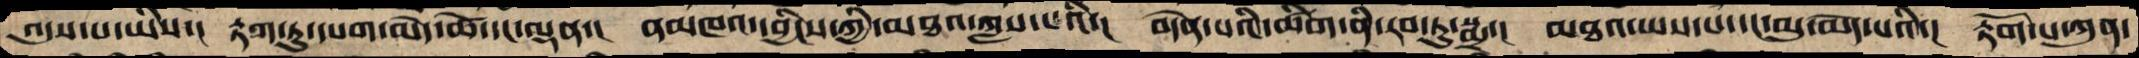འདུས་པ་ཡིས་།  རྟག་ཏུ་དཔག་མེད་ཚེ་དང་ལྡན་།  ནམཁའ་དབྱིངས་ཀྱི་མཐའ་ཀླས་པའི་།  བདེེན་པའི་ཚིག་ནི་རབ་ཏུ་སྨྲ་།  མཐའ་ཡས་པ་དང་མུ་མེད་པའི་།  རྟོག་པ་ཀུན་
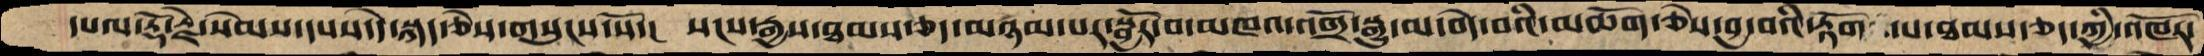དཔལ་རྡོ་རྗེ་སེམས་དཔས་དེ་སྐད་ཅེས་གསུངས་སོ་།  སངས་རྒྱས་ཐམས་ཅད་མཉམ་པར་སྦྱོར་བ་མཁའ་འགྲོ་སྒྱུ་མ་བདེ་བའི་མཆོག་ཅེས་བྱ་བའི་རྟོག་པ་ཐམས་ཅད་ཀྱི་འཁོར་
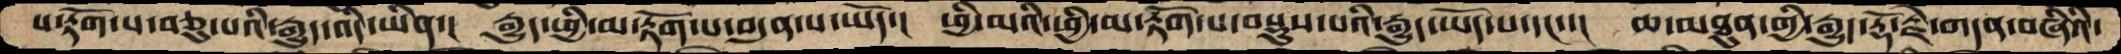པ་རྟོག་པ་བཅུ་པའི་རྒྱུད་འདི་ཡིན་།  རྒྱུད་ཕྱི་མ་རྟོག་པ་བདུན་པ་ཡོད་།  ཕྱི་མའི་ཕྱི་མ་རྟོག་པ་བསྡུས་པའི་རྒྱུད་ཡོད་པ་དང་་།  ཆ་མཐུན་གྱི་རྒྱུད་རྡོ་རྗེ་གདན་བཞིའི་
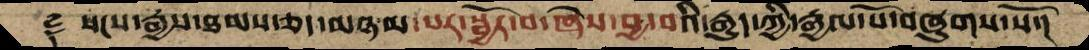࿑ སངས་རྒྱས་ཐམས་ཅད་མཉམ་པར་སྦྱོར་བ་ཞེས་བྱ་བའི་རྒྱུད་ཀྱི་རྒྱལ་པོ་བཞུགས་སོ་།
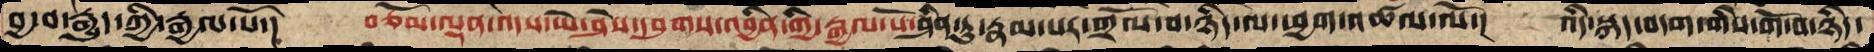བྱ་བ་རྒྱུད་ཀྱི་རྒྱལ་པོ་།  བཅོམ་ལྡན་འདས་ཡེ་ཤེས་དབུགས་འབྱིན་གྱི་རྒྱལ་པོ་ཤིན་ཏུ་རྣམ་པར་གྲོལ་བ་ཉིད་ལ་ཕྱག་འཚལ་ལོ་།  འདི་སྐད་བདག་གིས་གོ་བ་ཉིད་
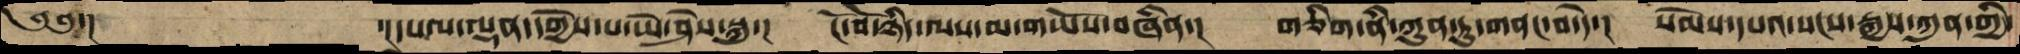༄༅་།        ་།་དཔལ་ལྡན་དགྱེས་པ་ཡེ་ཤེས་སྐུ་།  ངོ་བོ་ཉིད་ལས་མ་གཡོས་བཞིན་།  གཅིག་ནི་ཀུན་ཏུ་གནང་བ་དེ་།  སེམས་དཔའ་སངས་རྒྱས་ཀུན་གྱི་
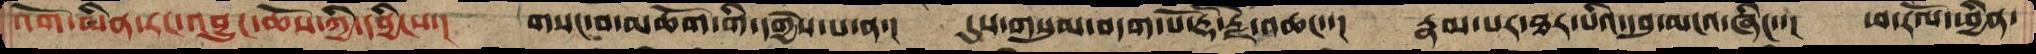འོག་མིན་རང་བྱུང་ཆོས་ཀྱི་དབྱིངས་།  གསང་བ་མཆོག་གི་དགྱེས་པ་ན་།  དུས་གསུམ་བདག་པོ་རྡོ་རྗེ་འཆང་་།  རྣམ་པར་ཐར་པའི་དབུ་མངའ་ཞིང་་།  ཕ་རོལ་ཕྱིན་
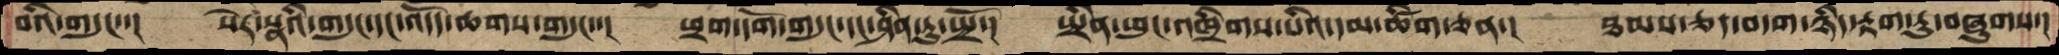བའི་གདུང་་།  སེར་སྣའི་གདུང་དང་འདོད་ཆགས་གདུང་་།  ཕྲག་དོག་གདུང་དང་ཤིན་ཏུ་སྤྲོ་།  སྤྲིན་ཕུང་འཁྲིགས་པའི་དམ་ཚིག་ཅན་།  ཐམས་ཅད་བདག་ཉིད་རྟག་ཏུ་བཞུགས་།
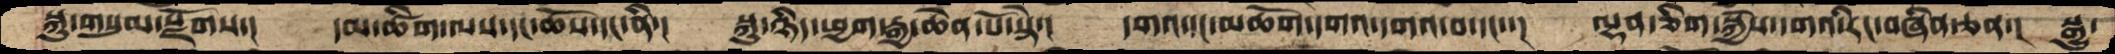སྐུ་གསུམ་སྫོགས་།  དམ་ཚིག་ལས་དང་ཆོས་དང་ནི་།  སྐུ་ཉིད་ཕྱག་རྒྱ་ཆེན་པོ་སྟེ་།  དགའ་དང་མཆོག་དགའ་དགའ་བ་དང་་།  ལྷན་ཅིག་སྐྱེས་དགའི་རང་བཞིན་ཅན་།  སྒྱུ་
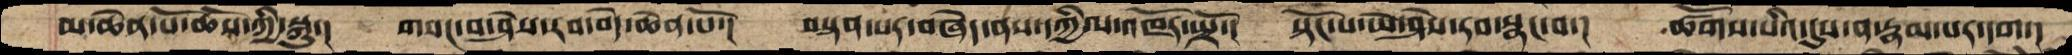མ་ཆེན་པོ་ཆོས་ཀྱི་སྐུ་།  གསང་བ་ཤེས་རབ་བདེ་ཆེན་པོ་།  བསྟན་པར་བཞེད་ནས་དཀྱིལ་འཁོར་སྤྲོ་།  སྟོང་པ་ཡེ་ཤེས་རབ་སྣང་བ་།  ཚོགས་པའི་དུས་ན་རྣམ་པར་དག་།
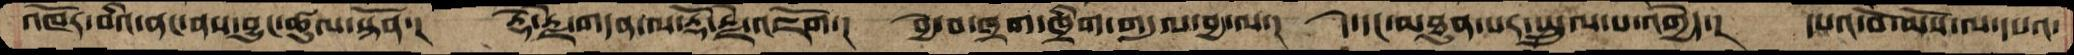འཁོར་བའི་ནང་ནས་བྱུང་ཚུལ་སྟོན་།  རྡོ་རྗེ་གདན་ལ་རྡོ་རྗེ་འཇོག།  བྱེ་བ་ཁྲག་ཁྲིག་གདུལ་བྱ་ལ་།  དེ་དང་མཐུན་པར་སྤྲུལ་པ་འགྱེད་།  དཔའ་བོ་མོས་ལ་དཔའ་
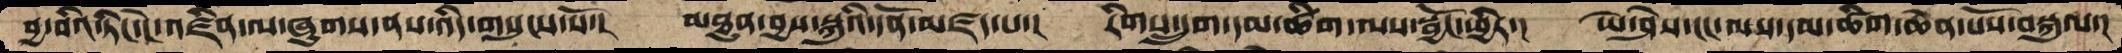བྱ་བའི་ཏིང་ངེ་འཛིན་ལ་ཞུགས་ནས་འདི་གསུངས་སོ་།  མཐུན་བྱས་སྐུའི་དོན་མཛད་པ་།  རིགས་དྲུག་དམ་ཚིག་ལས་སྦྱོང་ཕྱིར་།  ཡེ་ཤེས་ངང་ལས་དམ་ཚིག་ཆེན་པོས་བསྐུལ་།
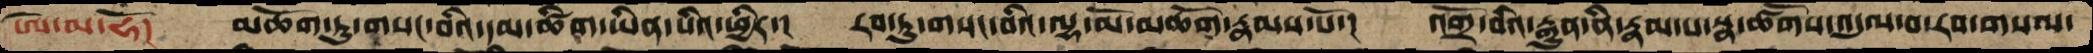ཨེ་མ་ཧོ།  མཆོག་ཏུ་གསང་བའི་དམ་ཚིག་ཡིན་པའི་ཕྱིར་།  རབ་ཏུ་གསང་བའི་ལྷ་མོ་མཆོག་རྣམས་སོ་།  འགྲོ་བའི་རྒྱུན་ནི་རྣམ་པ་སྣ་ཚོགས་འདུལ་བ་རབ་གསལ་
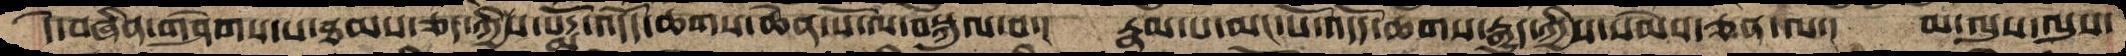དེ་བཞིན་གཤེགས་པ་ཐམས་ཅད་ཀྱིས་པདྨོ་འདོད་ཆགས་ཆེན་པོ་ལ་བསྐུལ་བ་།  རྣམ་པ་མང་པོ་འདོད་ཆགས་རྒྱུད་ཀྱིས་སེམས་ཅན་ལ་།  མ་ལུས་ལུས་
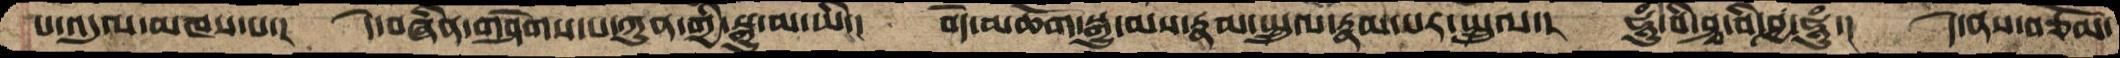པ་འདུལ་མཁས་པ་།  དེ་བཞིན་གཤེགས་པ་ཀུན་གྱི་སྒྱུ་མ་ཡི་།  བདེ་མཆོག་སྒྱུ་མས་རྣམ་སྤྲུལ་རྣམ་པར་སྤྲུལ་།  ཧཱུཾ་བི་ཤྭ་བི་ཤྱ་ཧཱུཾ་།  དེ་ནས་བཅོམ་
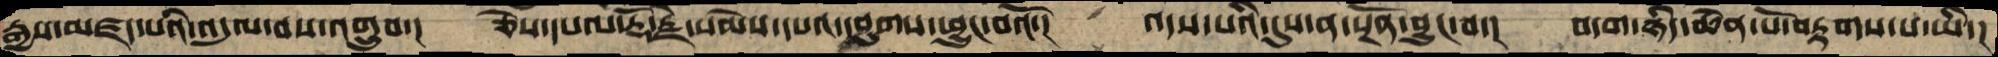རྒྱས་མཛད་པའི་འདུལ་བས་འགྲུབ་།  ཅེས་དཔལ་རྡོ་རྗེ་སེམས་དཔའ་དབྱུགས་ཕྱུང་བའོ་།  འདས་པའི་དུས་ན་སྔོན་བྱུང་བ་།  བདག་ཉིད་ཆེན་པོ་བརྟགས་པ་ཡི་།
